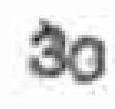30
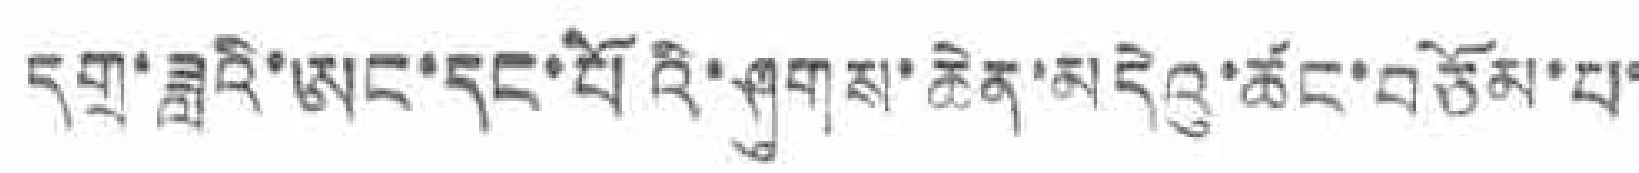དགྲ་ཟླའི་ཨང་དང་པོའི་ཤུགས་ཆེན་མདེའུ་ཚང་བཅོམ་པ་
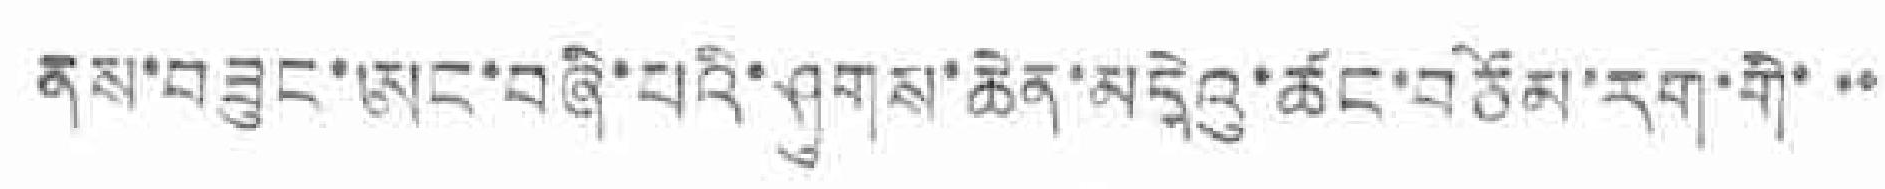ནས་བཟུང་ཨང་བཞི་པའི་ཤུགས་ཆེན་མདེའུ་ཚང་བཅོམ་རག་གི་་་
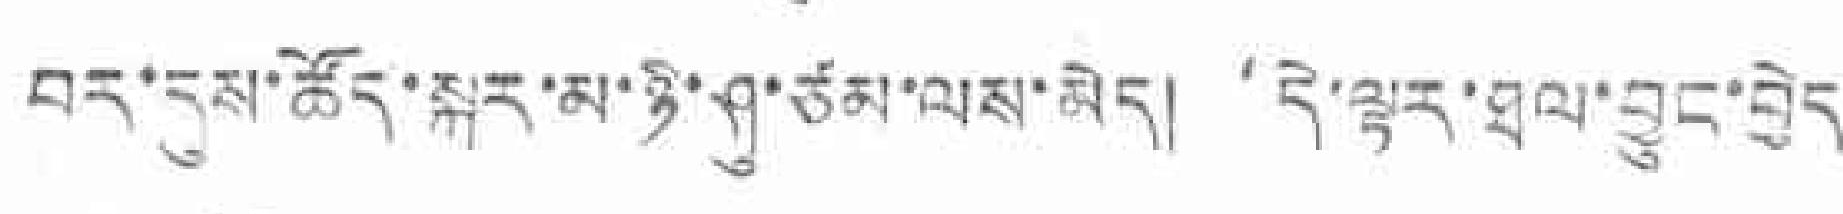བར་དུས་ཚོད་སྐར་མ་ཉི་ཤུ་ཙམ་ལས་མེད། དེ་ལྟར་ཐལ་བྱུང་བྱེད་
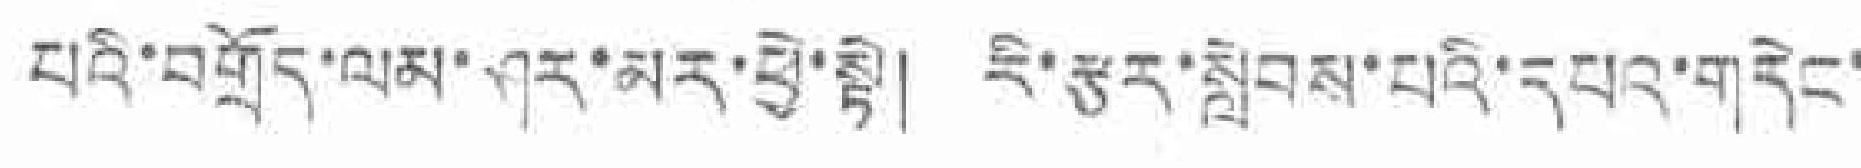པའི་བགྲོད་ལམ་ཤར་མར་ཕྱེ་སྟེ། རི་རྩར་སླེབས་པའི་དཔའ་གདེང་
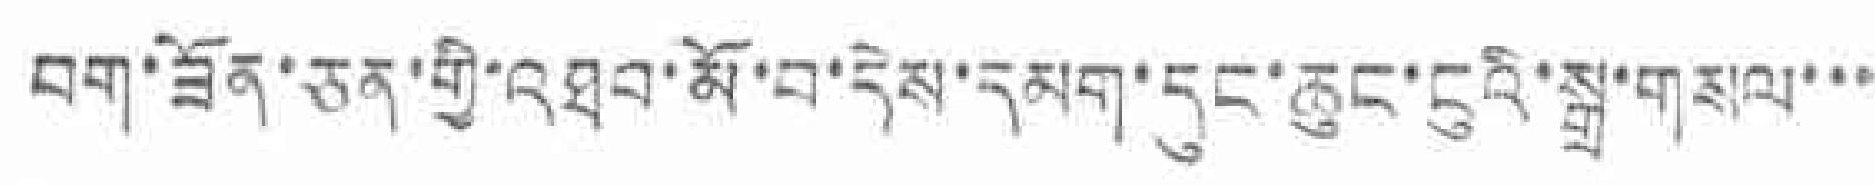བག་ཟོན་ཅན་གྱི་འཐབ་མོ་བ་དེས་དམག་དུང་ཆུང་ངུའི་སྒྲ་གསལ་་་
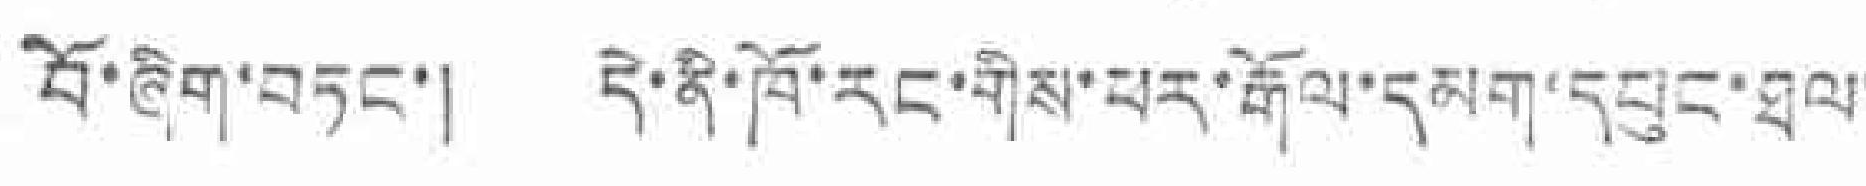བོ་ཞིག་བཏང་། དེ་ནི་ཁོ་རང་གིས་ཕར་རྒོལ་དམག་དཔུང་ཐལ་
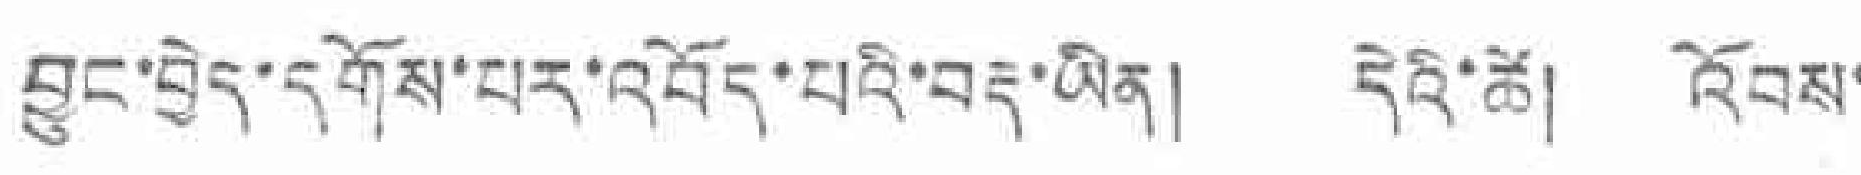བྱུང་བྱེད་དགོས་པར་འབོད་པའི་བརྡ་ཡིན། དེའི་ཚེ། འོབས་
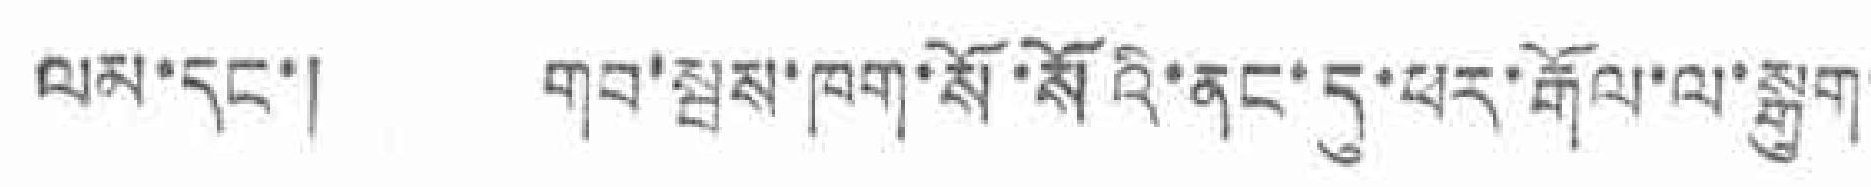ལམ་དང་། གབ་སྦས་ཁག་སོ་སོའི་ནང་དུ་ཕར་རྒོལ་ལ་སྒུག་
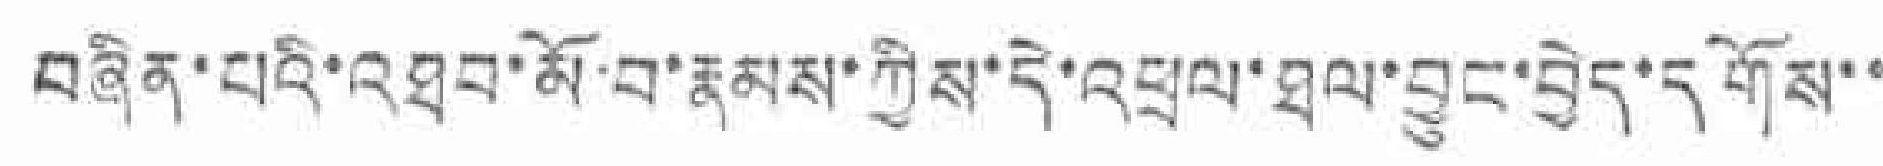བཞིན་པའི་འཐབ་མོ་བ་རྣམས་ཀྱིས་དེ་འཕྲལ་ཐལ་བྱུང་བྱེད་དགོས་་
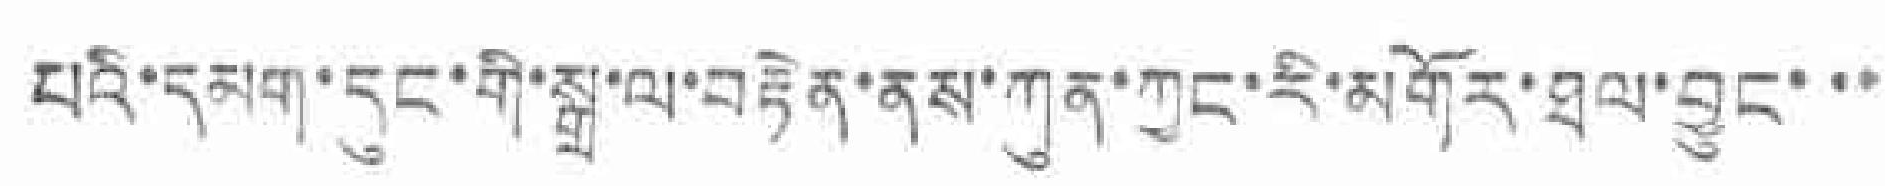པའི་དམག་དུང་གི་སྒྲ་ལ་བརྟེན་ནས་ཀུན་ཀྱང་རི་མགོར་ཐལ་བྱུང་་་
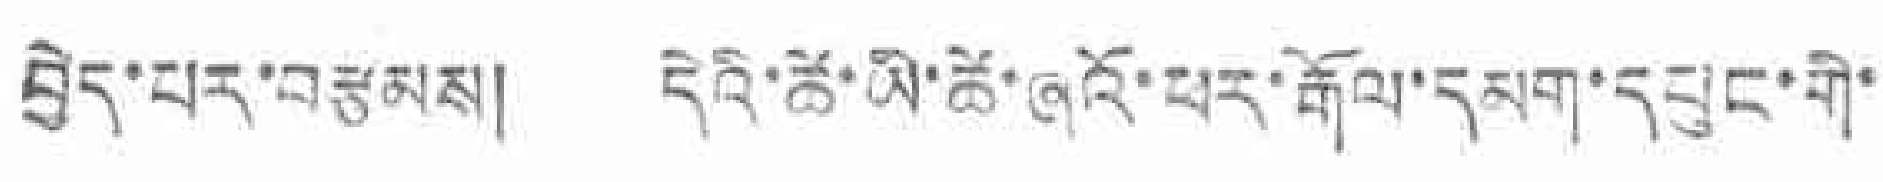བྱེད་པར་བརྩམས། དེའི་ཚེ་ཡི་ཚེ་ཞའོ་ཕར་རྒོལ་དམག་དཔུང་གི་
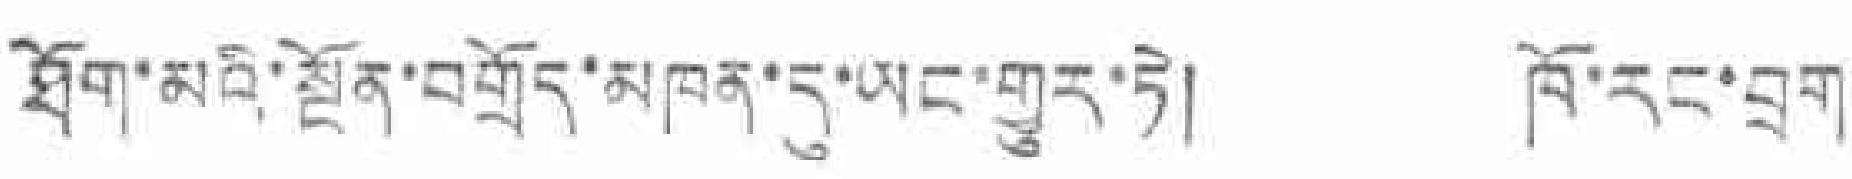ཐོག་མའི་སྔོན་བགྲོད་མཁན་དུ་ཡང་གྱུར་ཏེ། ཁོ་རང་བྲག་
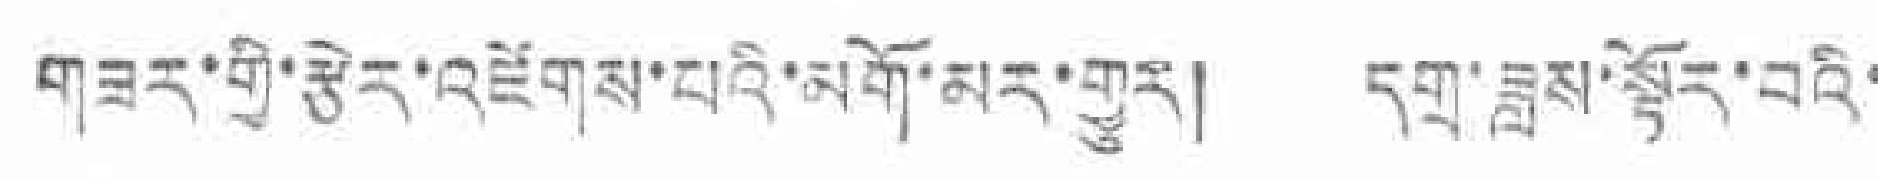གཟར་གྱི་རྩེར་འཛེགས་པའི་མགོ་མར་གྱུར། དགྲ་ཟླས་སྟོར་བའི་
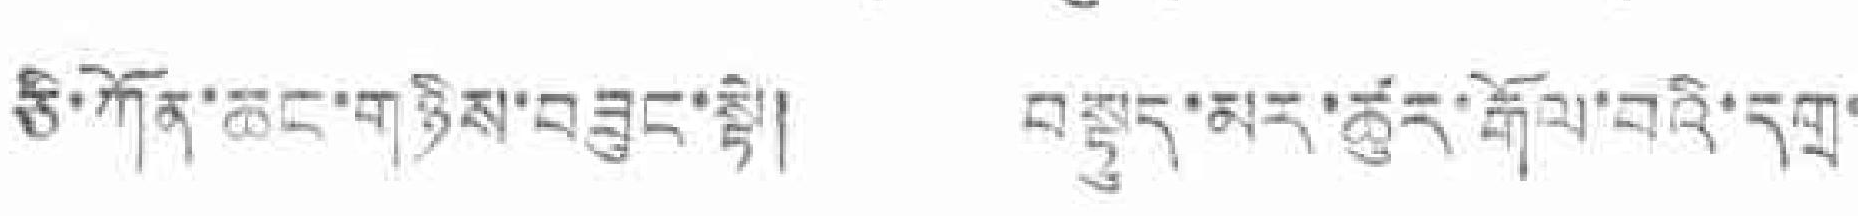ཅི་ཀོན་ཆང་གཉིས་བཟུང་སྟེ། བསྟུད་མར་ཚུར་རྒོལ་བའི་དགྲ་
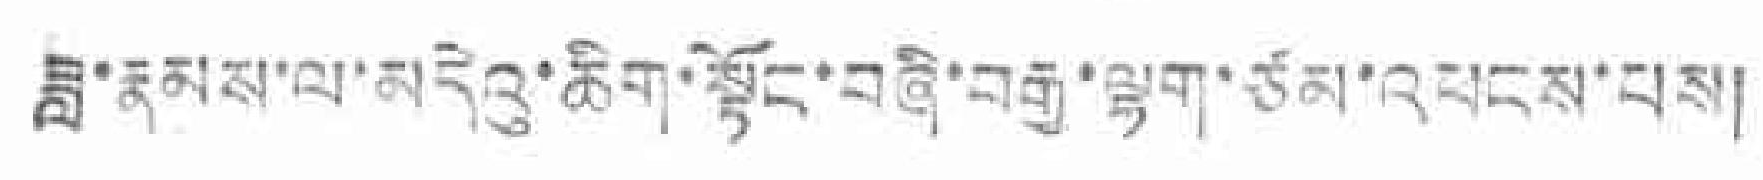ཟླ་རྣམས་ལ་མདེའུ་ཆིག་སྟོང་བཞི་བརྒྱ་ལྷག་ཙམ་འཕངས་པས།
